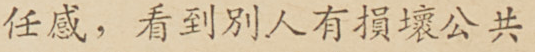任感，看到別人有損壞公共
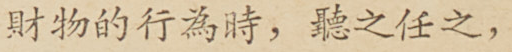財物的行為時，聽之任之，
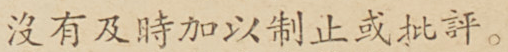沒有及時加以制止或批評。
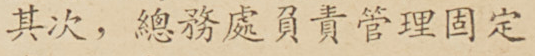其次，總務處負責管理固定
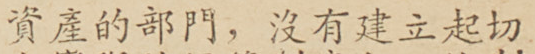資產的部門，沒有建立起切
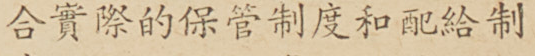合實際的保管制度和配給制
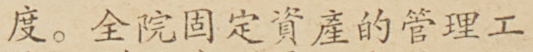度。全院固定資產的管理工
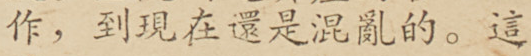作，到現在還是混亂的。這
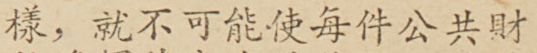樣，就不可能使每件公共財
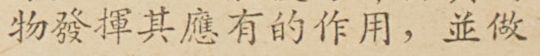物發揮其應有的作用，並做
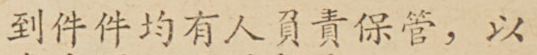到件件均有人負責保管，以
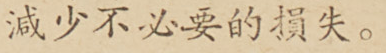減少不必要的損失。
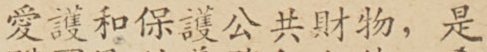愛護和保護公共財物，是
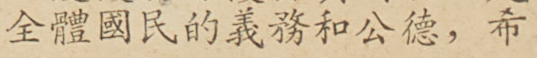全體國民的義務和公德，希
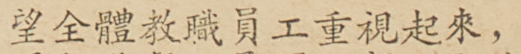望全體教職員工重視起來，
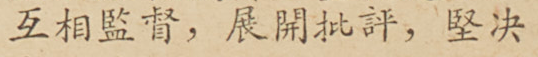互相監督，展開批評，堅決
